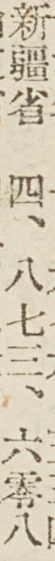新疆省 四、八七三、六零八
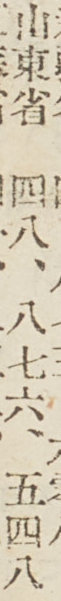山東省 四八、八七六、五四八
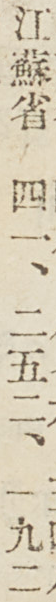江蘇省 四一、二五二、一九二
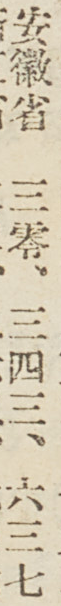安徽省 三零、三四三、六三七
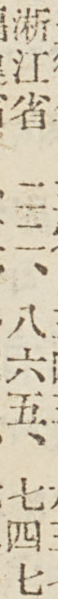浙江省 二二、八六五、七四七
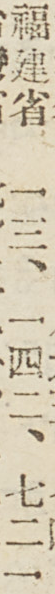福建省 一三、一四二、七二一
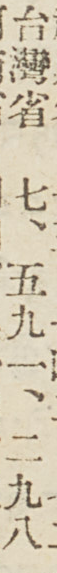台灣省 七、五九一、二九八
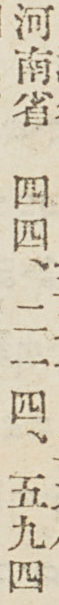河南省 四四、二一四、五九四
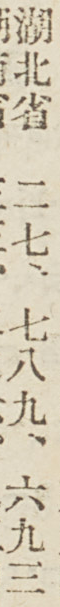湖北省 二七、七八九、六九三
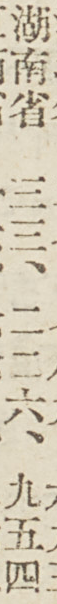湖南省 三三、二二六、九五四
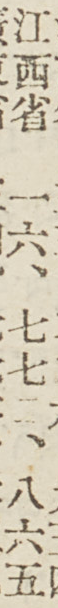江西省 一六、七七二、八六五
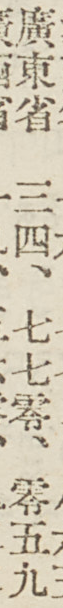廣東省 三四、七七零、零五九
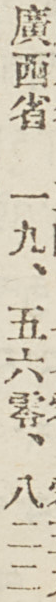廣西省 一九、五六零、八二二
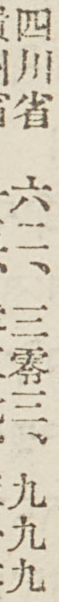四川省 六二、三零三、九九九
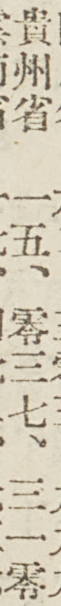貴州省 一五、零三七、三一零
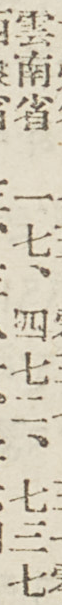雲南省 一七、四七二、七三七
